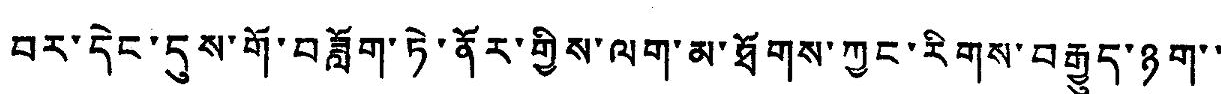བར་དེང་དུས་གོ་བཟློག་ཏེ་ནོར་གྱིས་ལག་མ་ཐོགས་ཀྱང་རིགས་བརྒྱུད་ཉག་་
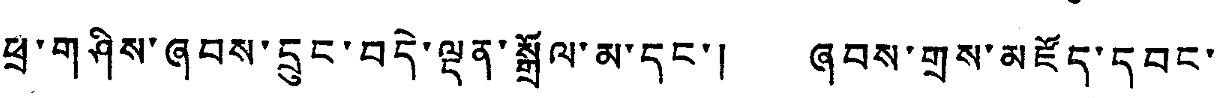ཕྲ་གཤིས་ཞབས་དྲུང་བདེ་ལྡན་སྒྲོལ་མ་དང་། ཞབས་གྲས་མཛོད་དབང་
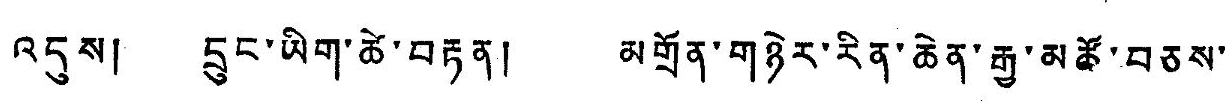འདུས། དྲུང་ཡིག་ཚེ་བརྟན། མགྲོན་གཉེར་རིན་ཆེན་རྒྱ་མཚོ་བཅས་
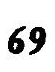69
